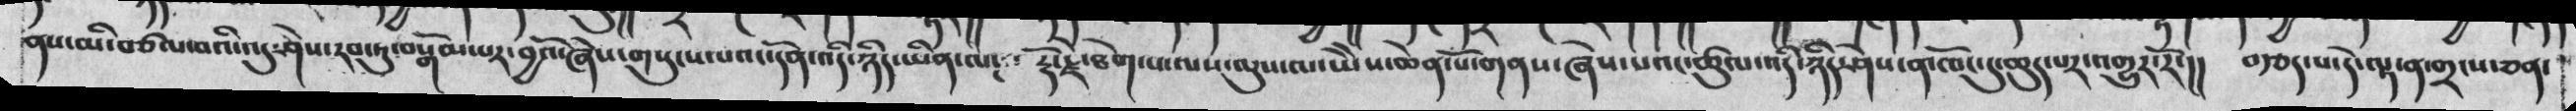ནས་མི་བཙལ་བའི་འདུ་ཤེས་རབ་ཏུ་བསྒོམ་པར་བྱའོ་ཞེས་གསུངས་པའང་དོན་འདི་ཉིད་ཡིན་ལ༴ རྡོ་རྗེ་ཐེག་པ་ལས་ལུས་ལ་ཡཻས་ཆེན་པོ་གནས་ཞེས་པའང་ཚུལ་འདི་ཉིད་ཤེས་ན་ཁོང་དུ་ཆུད་པར་འགྱུར་རོ་།། བརྩད་པ་དེ་ལྟ་ན་གྲངས་ཅན་
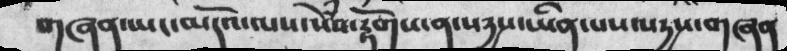གཞན་ཡང་མདོའ་ལས་སེཾས་རྟོགས་ན་སདྱས་ཡིན་པས་སདྱས་གཞན
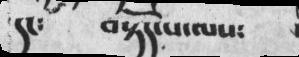དང༴  བསྟོད་པ་ལས༴
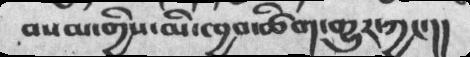བསམ་གྱིས་མི་ཁྱབ་ཚིག་གྱུར་ཀྱང་།།
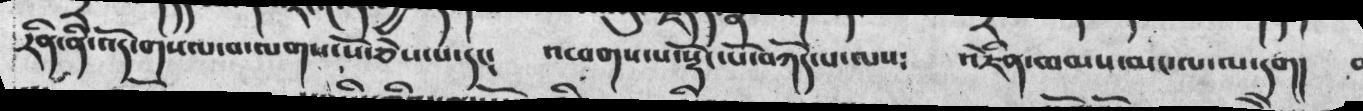རིན་ནི་འོད་གསལ་བ་ལགས་སོ་ཅེས་པ་དང༴  འཕགས་པ་སྡོང་པོ་བཀོད་པ་ལས༴  འཇིེན་ཁམས་མང་ལ་ལ་དག།
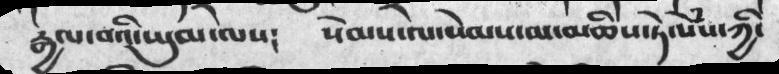རྒྱལ་བའི་ཡུམ་ལས༴   སེམས་ལ་སེམས་མ་མཆིས་ཏེ་སེཾས་ཀྱི་
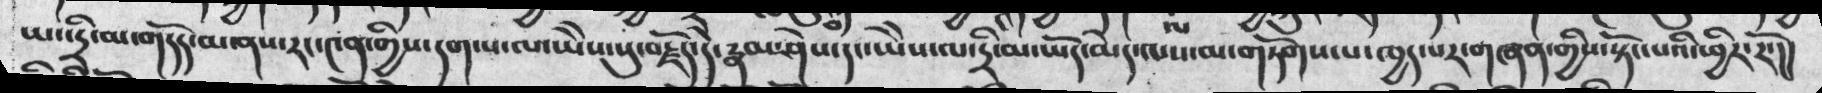ཡང་དྲི་མ་གདོད་མ་ནས་རང་༤ན་གྱིས་དག་པ་ལ་ཡེེས་སུ་བརྗོད་དེ་རྣམ་ཤེས་དང་ཡེེས་ལ་དྲི་མ་ཡོད་མེད་ལས་མ་གཏོགས་པ་ཁྱད་པར་གཞན་གྱིས་སྟོང་པའི་ཕྱིར་རོ་།།
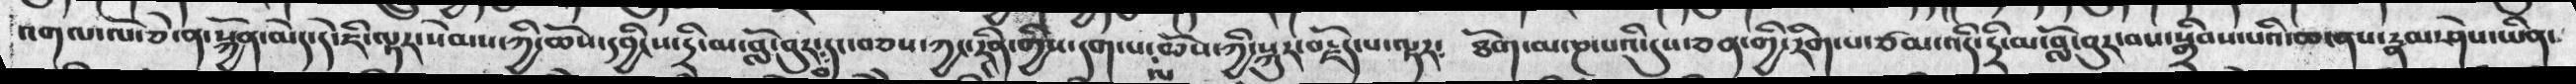འགལ་ལོ་ཅེ་ན་སྐྱོན་མེད་དེ་ཇི་ལྟར་སེམས་ཀྱི་ཆོས་དབྱིངས་དྲི་མ་བློ་བུར་བ་དང་བཅས་ཀྱང་རིན་གྱིས་དག་པ་ལ་ཆོས་ཀྱི་སྐུར་བརྗོད་པ་ལྟར༴  ཐོག་མ་ཎ་པའི་དུས་ཅན་གྱི་རིག་པ་ཙམ་འདི་དྲི་མ་བློ་བུར་བས་སྒྲིབས་པའི་ཆ་ནས་རྣམ་ཤེས་ཡིན་
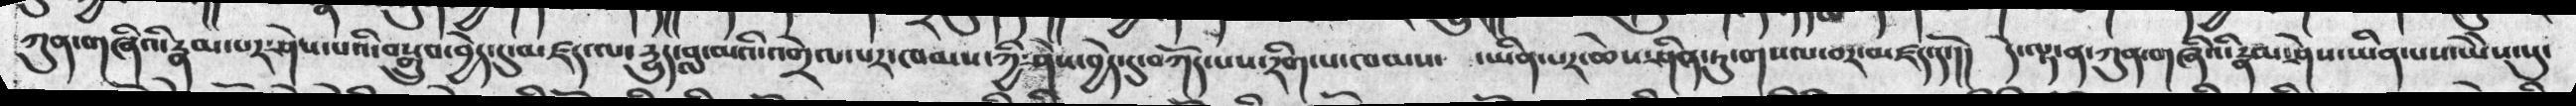ཀུན་གཞིའི་རྣམ་པར་ཤེས་པའི་བསྒྲུབ་བྱེད་དུ་མཛད་ལ་དྱུད་བླ་མའི་འགྲེལ་པར་ཁམས་ཀྱི་ཤེས་བྱེད་དུ་བཀོད་པས་རིག་པ་ཁམས་ ་ཡིན་པར་ཆེས་ཤིན་ཏུ་གསལ་བར་མཛད་དེ་།། དེ་ལྟ་ན་ཀུན་གཞིའི་རྣམ་ཤེས་ཡིན་པས་ཡཻས་སུ་
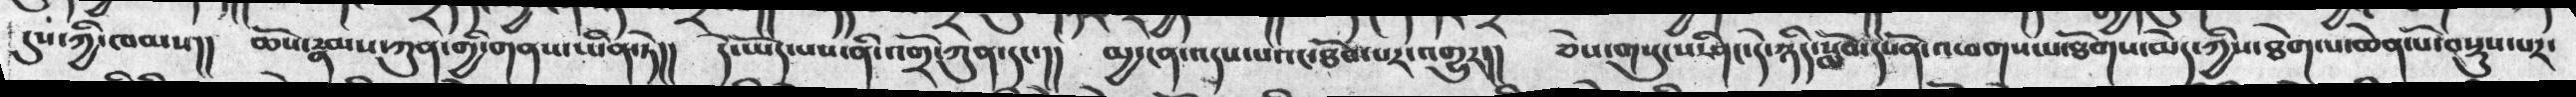དུས་ཀྱི་ཁམས།།  ཆོས་རྣམས་ཀུན་གྱི་གནས་ཡིན་ཏེ།།  དེ་ཡོད་པས་ནི་འགྲོ་ཀུན་དང་།།   མྱ་ངན་འདས་པའང་ཐོབ་པ་འགྱུར།། ཅེས་གསུངས་ཤིང་དེ་ཉིད་སློབ་དཔོན་འཕགས་པ་ཐོགས་མེད་ཀྱིས་ཐེག་པ་ཆེན་པོ་བསྡུས་པར་
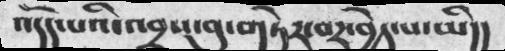འདོད་པའི་འབྲས་བུ་གཏེར་བར་བྱེད་པ་ཡིད།།
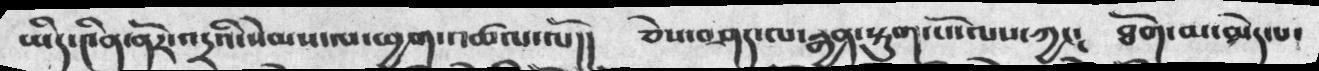ཡིད་༤ིན་ནོར་འདྲའི་སེམས་ལ་ཕྱག་འཚལ་ལོ།། ཅེས་བཤད་ལ་རྒྱན་སྟུག་པོ་ལས་ཀྱང༴ ཐོག་མ་མེད་པ་
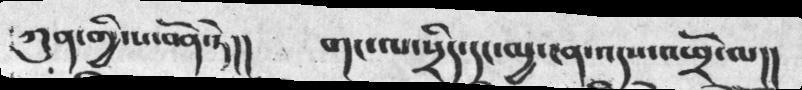ཀུན་གྱི་ས་བོན་ཏེ།། གང་ལ་སྲིད་དང་མྱ་ངན་འདས་འཕྲོ་ལ།།
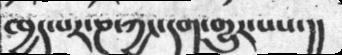ཁྱད་པར་ཎ་ཀྱང་དག་གྱུར་པས་།།
